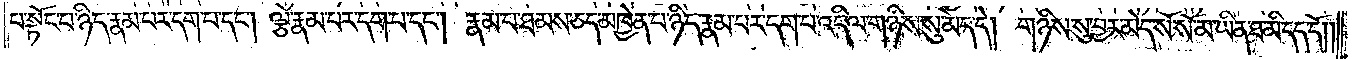པ་སྟོང་པ་ཉིད་རྣམ་པར་དག་པ་དང༌། ལྕེ་རྣམ་པར་དག་པ་དང༌། རྣམ་པ་ཐམས་ཅད་མཁྱེན་པ་ཉིད་རྣམ་པར་དག་པ་འདི་ལ་གཉིས་སུ་མེད་དེ། གཉིས་སུ་བྱར་མེད་སོ་སོ་མ་ཡིན་ཐ་མི་དད་དོ། །
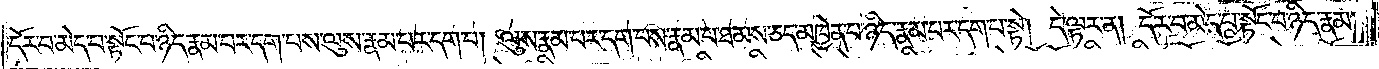དོར་བ་མེད་པ་སྟོང་པ་ཉིད་རྣམ་པར་དག་པས་ལུས་རྣམ་པར་དག་པ། ལུས་རྣམ་པར་དག་པས་རྣམ་པ་ཐམས་ཅད་མཁྱེན་པ་ཉིད་རྣམ་པར་དག་པ་སྟེ། དེ་ལྟར་ན། དོར་བ་མེད་པ་སྟོང་པ་ཉིད་རྣམ་
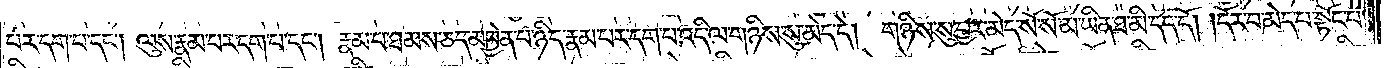པར་དག་པ་དང༌། ལུས་རྣམ་པར་དག་པ་དང༌། རྣམ་པ་ཐམས་ཅད་མཁྱེན་པ་ཉིད་རྣམ་པར་དག་པ་འདི་ལ་གཉིས་སུ་མེད་དེ། གཉིས་སུ་བྱར་མེད་སོ་སོ་མ་ཡིན་ཐ་མི་དད་དོ། །དོར་བ་མེད་པ་སྟོང་པ་
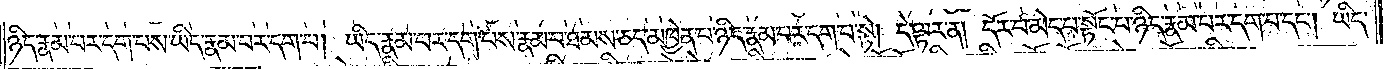ཉིད་རྣམ་པར་དག་པས་ཡིད་རྣམ་པར་དག་པ། ཡིད་རྣམ་པར་དག་པས་རྣམ་པ་ཐམས་ཅད་མཁྱེན་པ་ཉིད་རྣམ་པར་དག་པ་སྟེ། དེ་ལྟར་ན། དོར་བ་མེད་པ་སྟོང་པ་ཉིད་རྣམ་པར་དག་པ་དང༌། ཡིད་
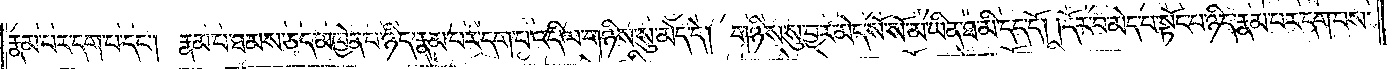རྣམ་པར་དག་པ་དང༌། རྣམ་པ་ཐམས་ཅད་མཁྱེན་པ་ཉིད་རྣམ་པར་དག་པ་འདི་ལ་གཉིས་སུ་མེད་དེ། གཉིས་སུ་བྱར་མེད་སོ་སོ་མ་ཡིན་ཐ་མི་དད་དོ། །དོར་བ་མེད་པ་སྟོང་པ་ཉིད་རྣམ་པར་དག་པས་
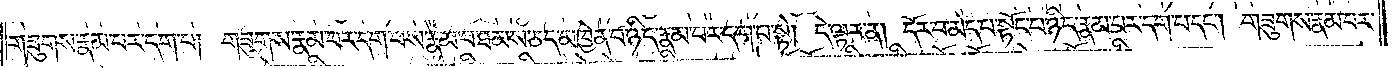གཟུགས་རྣམ་པར་དག་པ། གཟུགས་རྣམ་པར་དག་པས་རྣམ་པ་ཐམས་ཅད་མཁྱེན་པ་ཉིད་རྣམ་པར་དག་པ་སྟེ། དེ་ལྟར་ན། དོར་བ་མེད་པ་སྟོང་པ་ཉིད་རྣམ་པར་དག་པ་དང༌། གཟུགས་རྣམ་པར་
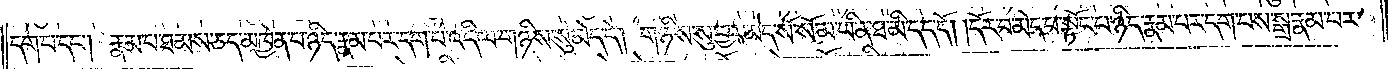དག་པ་དང༌། རྣམ་པ་ཐམས་ཅད་མཁྱེན་པ་ཉིད་རྣམ་པར་དག་པ་འདི་ལ་གཉིས་སུ་མེད་དེ། གཉིས་སུ་བྱར་མེད་སོ་སོ་མ་ཡིན་ཐ་མི་དད་དོ། །དོར་བ་མེད་པ་སྟོང་པ་ཉིད་རྣམ་པར་དག་པས་སྒྲ་རྣམ་པར་
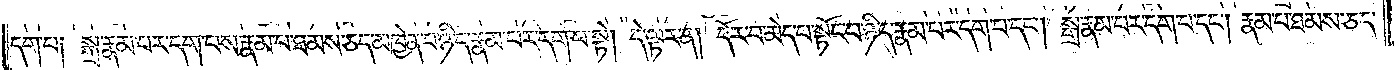དག་པ། སྒྲ་རྣམ་པར་དག་པས་རྣམ་པ་ཐམས་ཅད་མཁྱེན་པ་ཉིད་རྣམ་པར་དག་པ་སྟེ། དེ་ལྟར་ན། དོར་བ་མེད་པ་སྟོང་པ་ཉིད་རྣམ་པར་དག་པ་དང༌། སྒྲ་རྣམ་པར་དག་པ་དང༌། རྣམ་པ་ཐམས་ཅད་
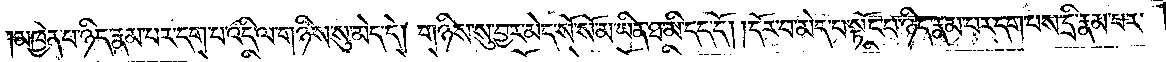མཁྱེན་པ་ཉིད་རྣམ་པར་དག་པ་འདི་ལ་གཉིས་སུ་མེད་དེ། གཉིས་སུ་བྱར་མེད་སོ་སོ་མ་ཡིན་ཐ་མི་དད་དོ། །དོར་བ་མེད་པ་སྟོང་པ་ཉིད་རྣམ་པར་དག་པས་དྲི་རྣམ་པར་
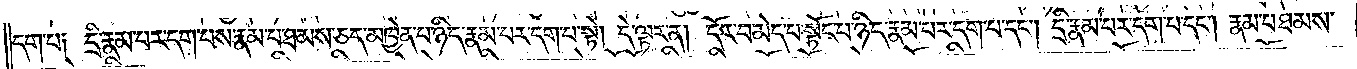དག་པ༑ དྲི་རྣམ་པར་དག་པས་རྣམ་པ་ཐམས་ཅད་མཁྱེན་པ་ཉིད་རྣམ་པར་དག་པ་སྟེ། དེ་ལྟར་ན། དོར་བ་མེད་པ་སྟོང་པ་ཉིད་རྣམ་པར་དག་པ་དང༌། དྲི་རྣམ་པར་དག་པ་དང༌། རྣམ་པ་ཐམས་
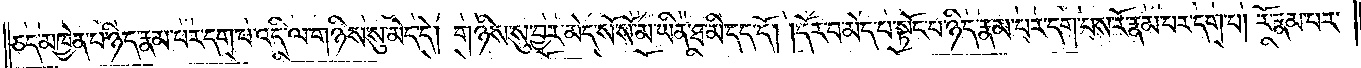ཅད་མཁྱེན་པ་ཉིད་རྣམ་པར་དག་པ་འདི་ལ་གཉིས་སུ་མེད་དེ། གཉིས་སུ་བྱར་མེད་སོ་སོ་མ་ཡིན་ཐ་མི་དད་དོ། །དོར་བ་མེད་པ་སྟོང་པ་ཉིད་རྣམ་པར་དག་པས་རོ་རྣམ་པར་དག་པ། རོ་རྣམ་པར་
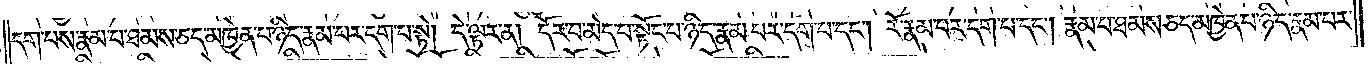དག་པས་རྣམ་པ་ཐམས་ཅད་མཁྱེན་པ་ཉིད་རྣམ་པར་དག་པ་སྟེ། དེ་ལྟར་ན། དོར་བ་མེད་པ་སྟོང་པ་ཉིད་རྣམ་པར་དག་པ་དང༌། རོ་རྣམ་པར་དག་པ་དང༌། རྣམ་པ་ཐམས་ཅད་མཁྱེན་པ་ཉིད་རྣམ་པར་
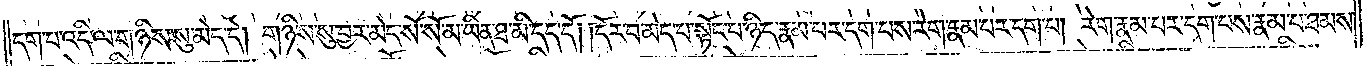དག་པ་འདི་ལ་གཉིས་སུ་མེད་དེ། གཉིས་སུ་བྱར་མེད་སོ་སོ་མ་ཡིན་ཐ་མི་དད་དོ། དོར་བ་མེད་པ་སྟོང་པ་ཉིད་རྣམ་པར་དག་པས་རེག་རྣམ་པར་དག་པ། རེག་རྣམ་པར་དག་པས་རྣམ་པ་ཐམས་
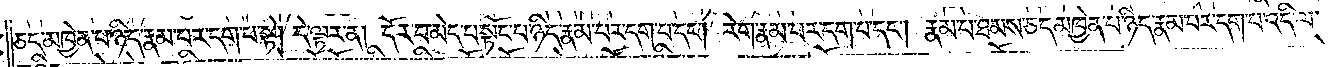ཅད་མཁྱེན་པ་ཉིད་རྣམ་པར་དག་པ་སྟེ། དེ་ལྟར་ན། དོར་བ་མེད་པ་སྟོང་པ་ཉིད་རྣམ་པར་དག་པ་དང༌། རེག་རྣམ་པར་དག་པ་དང༌། རྣམ་པ་ཐམས་ཅད་མཁྱེན་པ་ཉིད་རྣམ་པར་དག་པ་འདི་ལ་
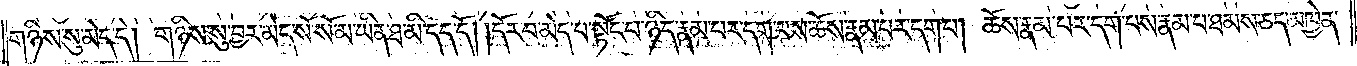གཉིས་སུ་མེད་དེ། གཉིས་སུ་བྱར་མེད་སོ་སོ་མ་ཡིན་ཐ་མི་དད་དོ། །དོར་བ་མེད་པ་སྟོང་པ་ཉིད་རྣམ་པར་དག་པས་ཆོས་རྣམ་པར་དག་པ། ཆོས་རྣམ་པར་དག་པས་རྣམ་པ་ཐམས་ཅད་མཁྱེན་
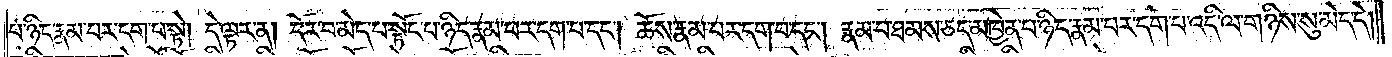པ་ཉིད་རྣམ་པར་དག་པ་སྟེ། དེ་ལྟར་ན། དོར་བ་མེད་པ་སྟོང་པ་ཉིད་རྣམ་པར་དག་པ་དང༌། ཆོས་རྣམ་པར་དག་པ་དང༌། རྣམ་པ་ཐམས་ཅད་མཁྱེན་པ་ཉིད་རྣམ་པར་དག་པ་འདི་ལ་གཉིས་སུ་མེད་དེ།
